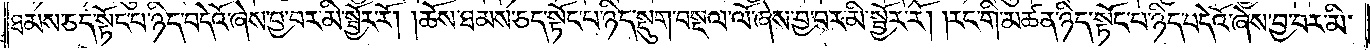ཐམས་ཅད་སྟོང་པ་ཉིད་བདེའོ་ཞེས་བྱ་བར་མི་སྦྱོར་རོ། །ཆོས་ཐམས་ཅད་སྟོང་པ་ཉིད་སྡུག་བསྔལ་ལོ་ཞེས་བྱ་བར་མི་སྦྱོར་རོ། །རང་གི་མཚན་ཉིད་སྟོང་པ་ཉིད་བདེའོ་ཞེས་བྱ་བར་མི་
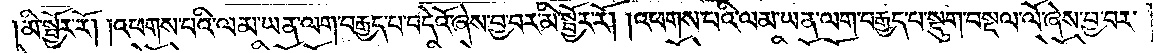མི་སྦྱོར་རོ། །འཕགས་པའི་ལམ་ཡན་ལག་བརྒྱད་པ་བདེའོ་ཞེས་བྱ་བར་མི་སྦྱོར་རོ། །འཕགས་པའི་ལམ་ཡན་ལག་བརྒྱད་པ་སྡུག་བསྔལ་ལོ་ཞེས་བྱ་བར་
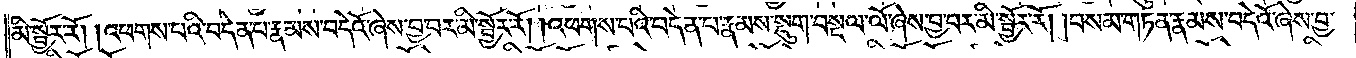མི་སྦྱོར་རོ། །འཕགས་པའི་བདེན་པ་རྣམས་བདེའོ་ཞེས་བྱ་བར་མི་སྦྱོར་རོ། །འཕགས་པའི་བདེན་པ་རྣམས་སྡུག་བསྔལ་ལོ་ཞེས་བྱ་བར་མི་སྦྱོར་རོ། །བསམ་གཏན་རྣམས་བདེའོ་ཞེས་བྱ་
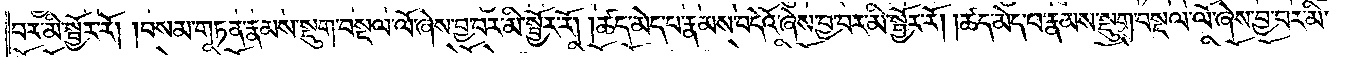བར་མི་སྦྱོར་རོ། །བསམ་གཏན་རྣམས་སྡུག་བསྔལ་ལོ་ཞེས་བྱ་བར་མི་སྦྱོར་རོ། །ཚད་མེད་པ་རྣམས་བདེའོ་ཞེས་བྱ་བར་མི་སྦྱོར་རོ། །ཚད་མེད་པ་རྣམས་སྡུག་བསྔལ་ལོ་ཞེས་བྱ་བར་མི་
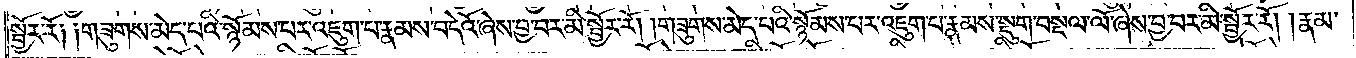སྦྱོར་རོ༑ ༑གཟུགས་མེད་པའི་སྙོམས་པར་འཇུག་པ་རྣམས་བདེའོ་ཞེས་བྱ་བར་མི་སྦྱོར་རོ། །གཟུགས་མེད་པའི་སྙོམས་པར་འཇུག་པ་རྣམས་སྡུག་བསྔལ་ལོ་ཞེས་བྱ་བར་མི་སྦྱོར་རོ། །རྣམ་
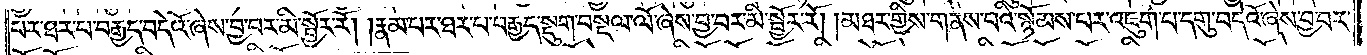པར་ཐར་པ་བརྒྱད་བདེའོ་ཞེས་བྱ་བར་མི་སྦྱོར་རོ། །རྣམ་པར་ཐར་པ་བརྒྱད་སྡུག་བསྔལ་ལོ་ཞེས་བྱ་བར་མི་སྦྱོར་རོ། །མཐར་གྱིས་གནས་པའི་སྙོམས་པར་འཇུག་པ་དགུ་བདེའོ་ཞེས་བྱ་བར་
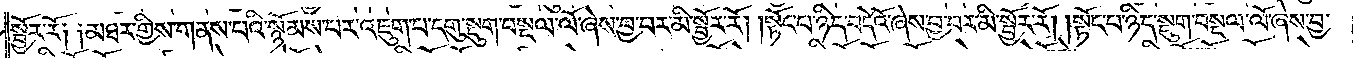སྦྱོར་རོ༑ ༑མཐར་གྱིས་གནས་པའི་སྙོམས་པར་འཇུག་པ་དགུ་སྡུག་བསྔལ་ལོ་ཞེས་བྱ་བར་མི་སྦྱོར་རོ། །སྟོང་པ་ཉིད་བདེའོ་ཞེས་བྱ་བར་མི་སྦྱོར་རོ། །སྟོང་པ་ཉིད་སྡུག་བསྔལ་ལོ་ཞེས་བྱ་
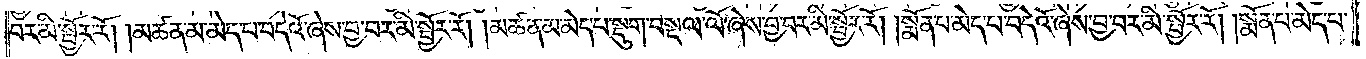བར་མི་སྦྱོར་རོ། །མཚན་མ་མེད་པ་བདེའོ་ཞེས་བྱ་བར་མི་སྦྱོར་རོ། །མཚན་མ་མེད་པ་སྡུག་བསྔལ་ལོ་ཞེས་བྱ་བར་མི་སྦྱོར་རོ། །སྨོན་པ་མེད་པ་བདེའོ་ཞེས་བྱ་བར་མི་སྦྱོར་རོ། །སྨོན་པ་མེད་པ་
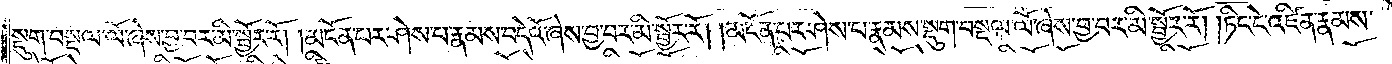སྡུག་བསྔལ་ལོ་ཞེས་བྱ་བར་མི་སྦྱོར་རོ། །མངོན་པར་ཤེས་པ་རྣམས་བདེའོ་ཞེས་བྱ་བར་མི་སྦྱོར་རོ། །མངོན་པར་ཤེས་པ་རྣམས་སྡུག་བསྔལ་ལོ་ཞེས་བྱ་བར་མི་སྦྱོར་རོ། །ཏིང་ངེ་འཛིན་རྣམས་
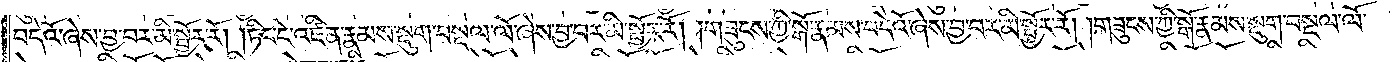བདེའོ་ཞེས་བྱ་བར་མི་སྦྱོར་རོ། །ཏིང་ངེ་འཛིན་རྣམས་སྡུག་བསྔལ་ལོ་ཞེས་བྱ་བར་མི་སྦྱོར་རོ། །གཟུངས་ཀྱི་སྒོ་རྣམས་བདེའོ་ཞེས་བྱ་བར་མི་སྦྱོར་རོ། །གཟུངས་ཀྱི་སྒོ་རྣམས་སྡུག་བསྔལ་ལོ་
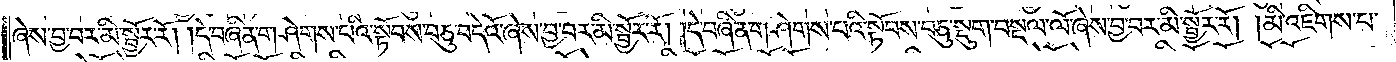ཞེས་བྱ་བར་མི་སྦྱོར་རོ། །དེ་བཞིན་གཤེགས་པའི་སྟོབས་བཅུ་བདེའོ་ཞེས་བྱ་བར་མི་སྦྱོར་རོ། །དེ་བཞིན་གཤེགས་པའི་སྟོབས་བཅུ་སྡུག་བསྔལ་ལོ་ཞེས་བྱ་བར་མི་སྦྱོར་རོ། །མི་འཇིགས་པ་
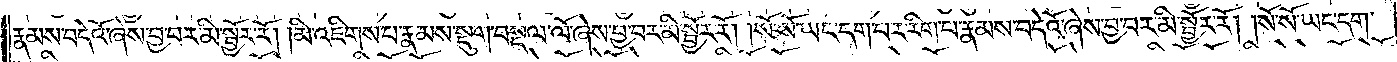རྣམས་བདེའོ་ཞེས་བྱ་བར་མི་སྦྱོར་རོ། །མི་འཇིགས་པ་རྣམས་སྡུག་བསྔལ་ལོ་ཞེས་བྱ་བར་མི་སྦྱོར་རོ། །སོ་སོ་ཡང་དག་པར་རིག་པ་རྣམས་བདེའོ་ཞེས་བྱ་བར་མི་སྦྱོར་རོ། །སོ་སོ་ཡང་དག་
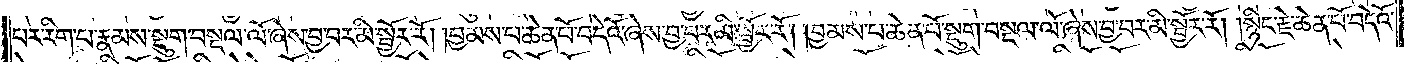པར་རིག་པ་རྣམས་སྡུག་བསྔལ་ལོ་ཞེས་བྱ་བར་མི་སྦྱོར་རོ། །བྱམས་པ་ཆེན་པོ་བདེའོ་ཞེས་བྱ་བར་མི་སྦྱོར་རོ། །བྱམས་པ་ཆེན་པོ་སྡུག་བསྔལ་ལོ་ཞེས་བྱ་བར་མི་སྦྱོར་རོ། །སྙིང་རྗེ་ཆེན་པོ་བདེའོ་
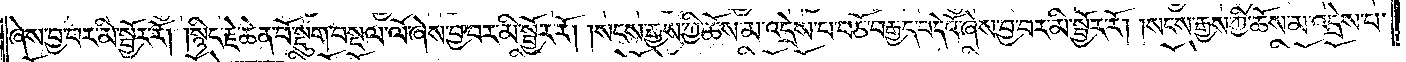ཞེས་བྱ་བར་མི་སྦྱོར་རོ། །སྙིང་རྗེ་ཆེན་པོ་སྡུག་བསྔལ་ལོ་ཞེས་བྱ་བར་མི་སྦྱོར་རོ། །སངས་རྒྱས་ཀྱི་ཆོས་མ་འདྲེས་པ་བཅོ་བརྒྱད་བདེའོ་ཞེས་བྱ་བར་མི་སྦྱོར་རོ། །སངས་རྒྱས་ཀྱི་ཆོས་མ་འདྲེས་པ་
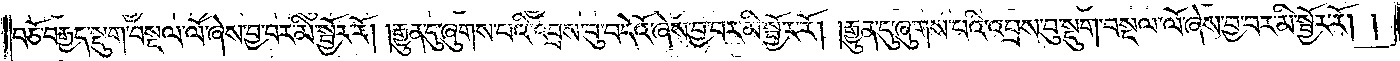བཅོ་བརྒྱད་སྡུག་བསྔལ་ལོ་ཞེས་བྱ་བར་མི་སྦྱོར་རོ། །རྒྱུན་དུ་ཞུགས་པའི་འབྲས་བུ་བདེའོ་ཞེས་བྱ་བར་མི་སྦྱོར་རོ། །རྒྱུན་དུ་ཞུགས་པའི་འབྲས་བུ་སྡུག་བསྔལ་ལོ་ཞེས་བྱ་བར་མི་སྦྱོར་རོ། །
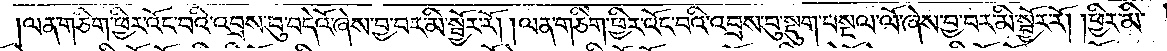ལན་གཅིག་ཕྱིར་འོང་བའི་འབྲས་བུ་བདེའོ་ཞེས་བྱ་བར་མི་སྦྱོར་རོ། །ལན་གཅིག་ཕྱིར་འོང་བའི་འབྲས་བུ་སྡུག་བསྔལ་ལོ་ཞེས་བྱ་བར་མི་སྦྱོར་རོ། །ཕྱིར་མི་
